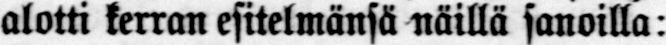alotti kerran esitelmänsä näillä sanoilla:
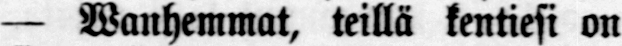— Wanhemmat, teillä kentiesi on
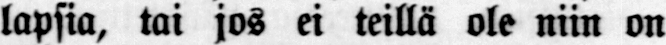lapsia, tai jos ei teillä ole niin on
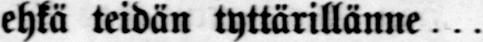ehkä teidän tyttärillänne...
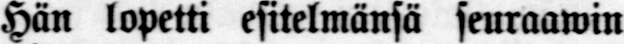Hän lopetti esitelmänsä seuraawin
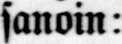sanoin:
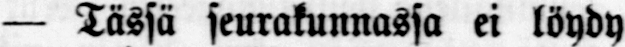— Tässä seurakunnassa ei löydy
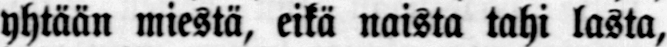yhtään miestä, eikä naista tahi lasta,
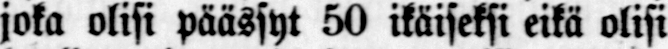joka olisi päässyt 50 ikäiseksi eikä olisi
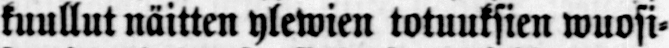kuullut näitten ylewien totuuksien wuosi-
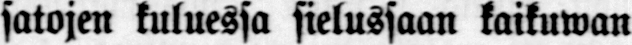satojen kuluessa sielussaan kaikuwan.
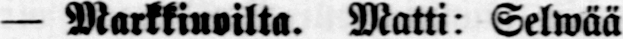— Markkinoilta. Matti: Selwää
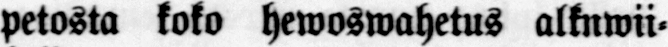petosta koko hewoswahetus alknwii-
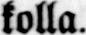kolla.
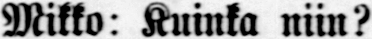Mikko: Kuinka niin ?
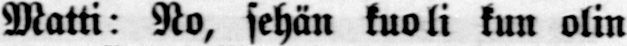Matti: No, sehän kuoli kun olin
